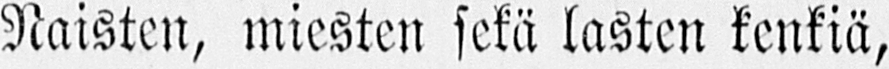Naisten, miesten sekä lasten kenkiä,
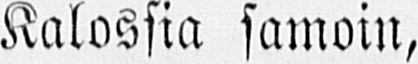Kalossia samoin,
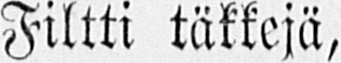Filtti täkkejä,
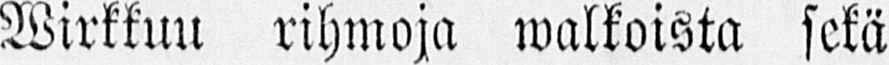Wirkkuu rihmoja walkoista sekä
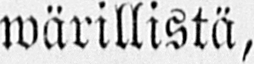wärillistä,
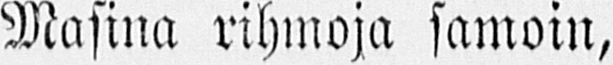Masina rihmoja samoin,
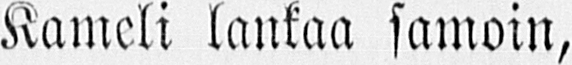Kameli lankaa samoin,
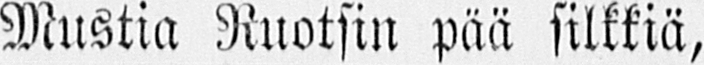Mustia Ruotsin pää silkkiä,
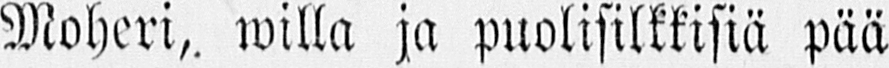Moheri,. willa ja puolisilkkisiä pää
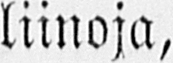liinoja,
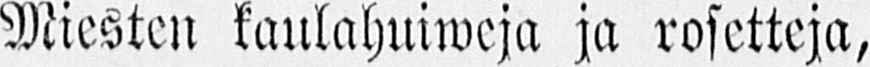Miesten kaulahuiweja ja rosetteja,
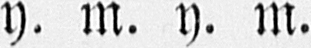y. m. y. m.
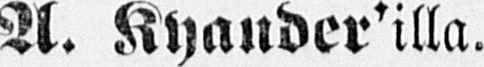A. Kyander'illa.
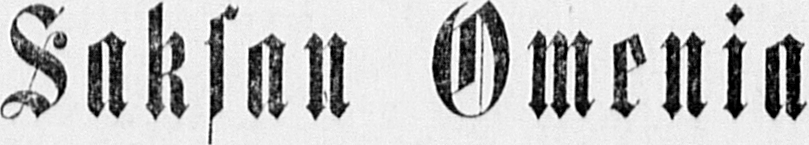Saksan Omenia
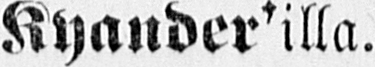A. Kyander'illa.
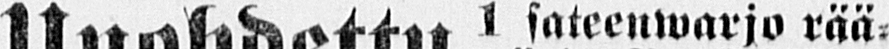Unohdettu I sateenwarjo rää-
